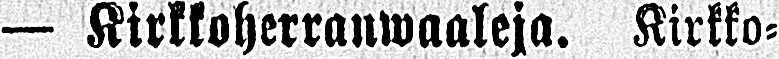— Kirkkoherranwaaleja. Kirkko-
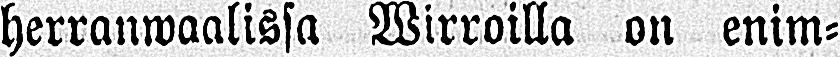herranwaalissa Wirroilla on enim-
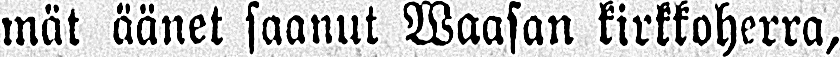mät äänet saanut Waasan kirkkoherra,
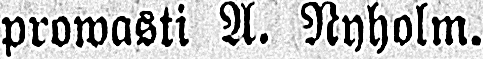prowasti A. Nyholm.
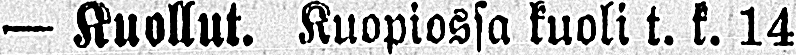— Kuollut. Kuopiossa kuoli t. k. 14
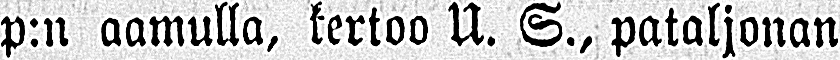p:n aamulla, kertoo U. S., pataljonan
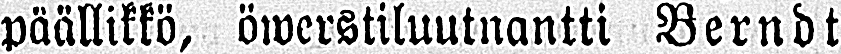päällikkö, öwerstiluutnantti Berndt
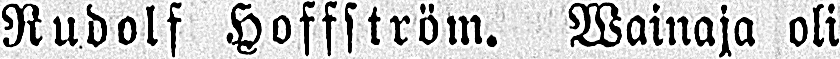Rudolf Hoffström. Wainaja oli
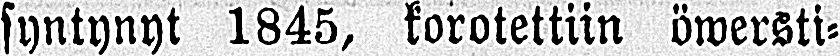syntynyt 1845, korotettiin öwersti-
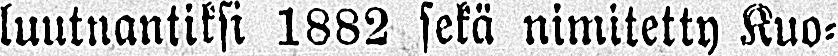luutnantiksi 1882 sekä nimitetty Kuo-
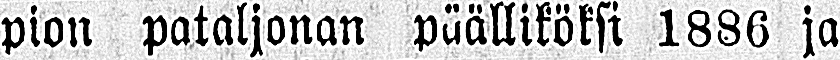pion pataljonan päälliköksi 1886 ja
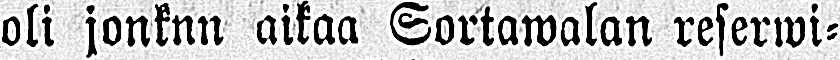oli jonknn aikaa Sortawalan reserwi-
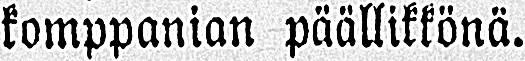komppanian päällikkönä.
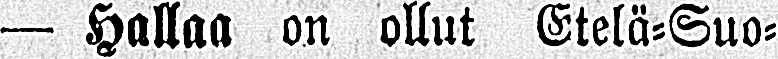— Hallaa on ollut Etelä-Suo-
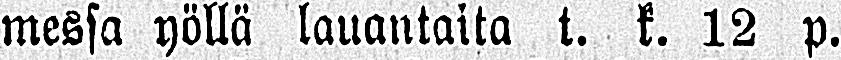messa yöllä lauantaita t. k. 12 p.
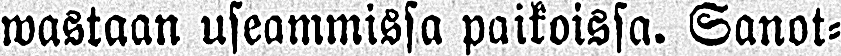wastaan useammissa paikoissa. Sanot-
